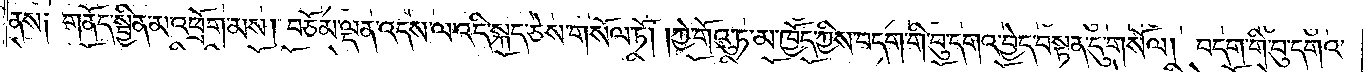ནས༑ གནོད་སྦྱིན་མ་འཕྲོག་མས། བཅོམ་ལྡན་འདས་ལ་འདི་སྐད་ཅེས་གསོལ་ཏོ། །ཀྱེ་གོའུ་ཏ་མ་ཁྱོད་ཀྱིས་བདག་གི་བུ་དགའ་བྱེད་བསྟན་དུ་གསོལ། བདག་གི་བུ་དགའ་
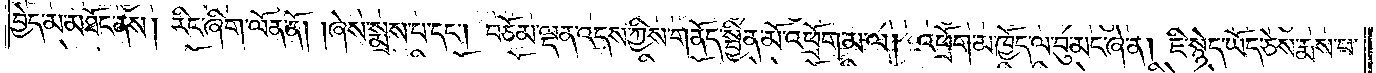བྱེད་མ་མཐོང་ནས། རིང་ཞིག་ལོན་ནོ། །ཞེས་སྨྲས་པ་དང༌། བཅོམ་ལྡན་འདས་ཀྱིས་གནོད་སྦྱིན་མོ་འཕྲོག་མ་ལ། འཕྲོག་མ་ཁྱོད་ལ་བུ་མང་ཞེ་ན། ཇི་སྙེད་ཡོད་ཅེས་རྨས་པ་
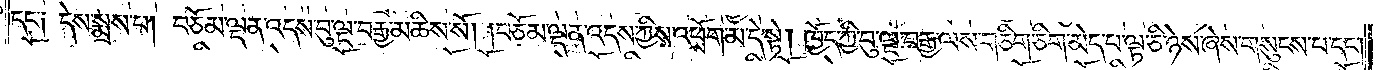དང་༑ དེས་སྨྲས་པ། བཅོམ་ལྡན་འདས་བུ་ལྔ་བརྒྱ་མཆིས་སོ། །བཅོམ་ལྡན་འདས་ཀྱིས་འཕྲོག་མ་དེ་སྟེ། ཁྱོད་ཀྱི་བུ་ལྔ་བརྒྱ་ལས་གཅིག་ཅིག་མེད་པ་ལྟ་ཅི་ཉེས་ཞེས་གསུངས་པ་དང༌།
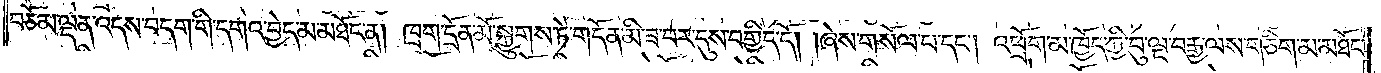བཅོམ་ལྡན་འདས་བདག་གི་དགའ་བྱེད་མ་མཐོང་ན། ཁྲག་དྲོན་མོ་སྐྱུགས་ཏེ་གདོན་མི་ཟ་བར་དུས་བགྱིད་དོ། །ཞེས་གསོལ་པ་དང༌། འཕྲོག་མ་ཁྱོད་ཀྱི་བུ་ལྔ་བརྒྱ་ལས་གཅིག་མ་མཐོང་
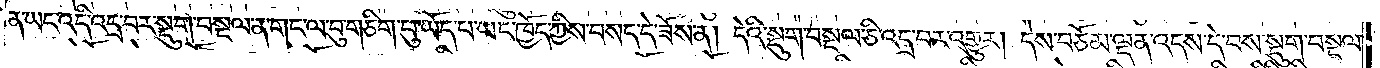ན་ཡང་འདི་འདྲ་བར་སྡུག་བསྔལ་ན་གང་ལ་བུ་གཅིག་པུ་ཡོད་པ་ཡང་ཁྱོད་ཀྱིས་བསད་དེ་ཟོས་ན། དེའི་སྡུག་བསྔལ་ཅི་འདྲ་བར་འགྱུར། དེས་བཅོམ་ལྡན་འདས་དེ་བས་སྡུག་བསྔལ་
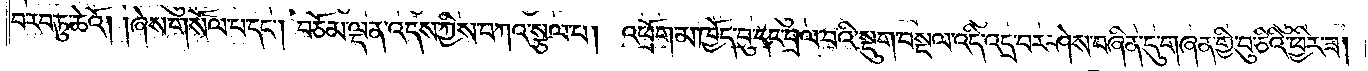བ་རབ་ཏུ་ཆེའོ། །ཞེས་གསོལ་པ་དང༌། བཅོམ་ལྡན་འདས་ཀྱིས་བཀའ་སྩལ་པ། འཕྲོག་མ་ཁྱོད་བུ་དང་བྲལ་བའི་སྡུག་བསྔལ་འདི་འདྲ་བར་ཤེས་བཞིན་དུ་གཞན་གྱི་བུ་ཅིའི་ཕྱིར་ཟ།
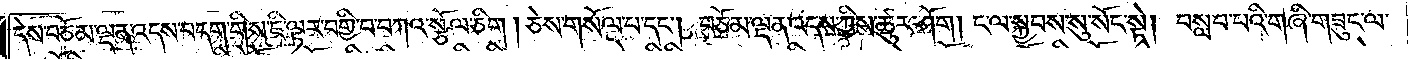དེས་བཅོམ་ལྡན་འདས་བདག་གིས་ཇི་ལྟར་བགྱི་བ་བཀའ་སྩོལ་ཅིག །ཅེས་གསོལ་པ་དང༌། བཅོམ་ལྡན་འདས་ཀྱིས་ཚུར་ཤོག །ང་ལ་སྐྱབས་སུ་སོང་སྟེ། བསླབ་པའི་གཞི་གཟུང་ལ་
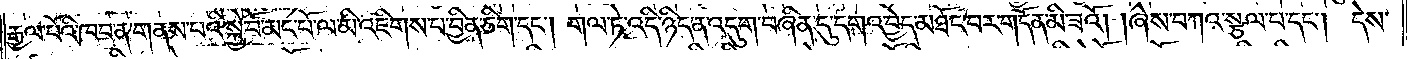རྒྱལ་པོའི་ཁབ་ན་གནས་པའི་སྐྱེ་བོ་མང་པོ་ལ་མི་འཇིགས་པ་བྱིན་ཅིག་དང༌། གལ་ཏེ་འདི་ཉིད་ན་འདུག་བཞིན་དུ་དགའ་བྱེད་མཐོང་བར་གདོན་མི་ཟའོ། །ཞེས་བཀའ་སྩལ་པ་དང༌། དེས་
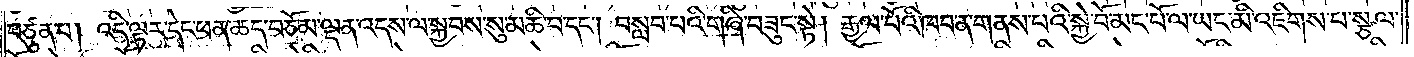བཙུན་པ། འདི་ལྟར་དེང་ཕན་ཆད་བཅོམ་ལྡན་འདས་ལ་སྐྱབས་སུ་མཆི་བ་དང༌། བསླབ་པའི་གཞི་བཟུང་སྟེ། རྒྱལ་པོའི་ཁབ་ན་གནས་པའི་སྐྱེ་བོ་མང་པོ་ལ་ཡང་མི་འཇིགས་པ་སྩལ་
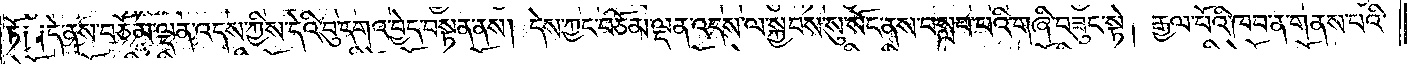ཏོ༑ ༑དེ་ནས་བཅོམ་ལྡན་འདས་ཀྱིས་དེའི་བུ་དགའ་བྱེད་བསྟན་ནས། དེས་ཀྱང་བཅོམ་ལྡན་འདས་ལ་སྐྱབས་སུ་སོང་ནས་བསླབ་པའི་གཞི་བཟུང་སྟེ། རྒྱལ་པོའི་ཁབ་ན་གནས་པའི་
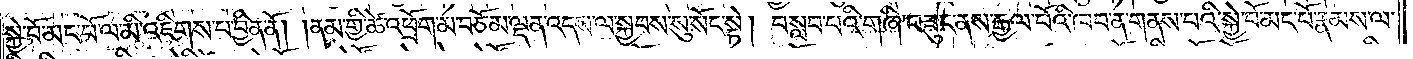སྐྱེ་བོ་མང་པོ་ལ་མི་འཇིགས་པ་བྱིན་ནོ། །ནམ་གྱི་ཚེ་འཕྲོག་མ་བཅོམ་ལྡན་འདས་ལ་སྐྱབས་སུ་སོང་སྟེ། བསླབ་པའི་གཞི་བཟུང་ནས་རྒྱལ་པོའི་ཁབ་ན་གནས་པའི་སྐྱེ་བོ་མང་པོ་རྣམས་ལ་
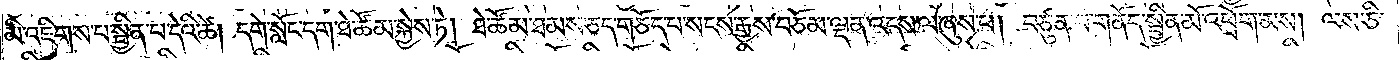མི་འཇིགས་པ་སྦྱིན་པ་དེའི་ཚེ། དགེ་སློང་དག་ཐེ་ཚོམ་སྐྱེས་ཏེ། ཐེ་ཚོམ་ཐམས་ཅད་གཅོད་པ་སངས་རྒྱས་བཅོམ་ལྡན་འདས་ལ་ཞུས་པ། བཙུན་པ་གནོད་སྦྱིན་མོ་འཕྲོག་མས། ལས་ཅི་
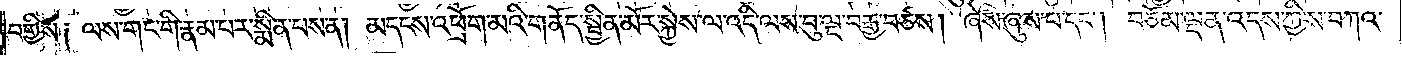བགྱིས༑ ལས་གང་གི་རྣམ་པར་སྨིན་པས་ན། མདངས་འཕྲོག་མའི་གནོད་སྦྱིན་མོར་སྐྱེས་ལ་འདི་ལས་བུ་ལྔ་བརྒྱ་བཙས། ཞེས་ཞུས་པ་དང༌། བཅོམ་ལྡན་འདས་ཀྱིས་བཀའ་
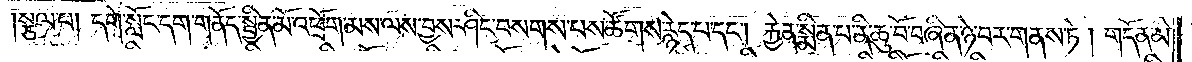སྩལ་པ། དགེ་སློང་དག་གནོད་སྦྱིན་མོ་འཕྲོག་མས་ལས་བྱས་ཤིང་བསགས་པས་ཚོགས་རྙེད་པ་དང༌། རྐྱེན་སྨིན་པ་ནི་ཆུ་བོ་བཞིན་ཉེ་བར་གནས་ཏེ། གདོན་མི་
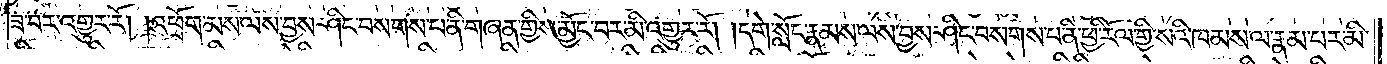ཟ་བར་འགྱུར་རོ། །འཕྲོག་མས་ལས་བྱས་ཤིང་བསགས་པ་ནི་གཞན་གྱིས་མྱོང་བར་མི་འགྱུར་རོ། །དགེ་སློང་རྣམས་ལས་བྱས་ཤིང་བསགས་པ་ནི་ཕྱི་རོལ་གྱི་སའི་ཁམས་ལ་རྣམ་པར་མི་
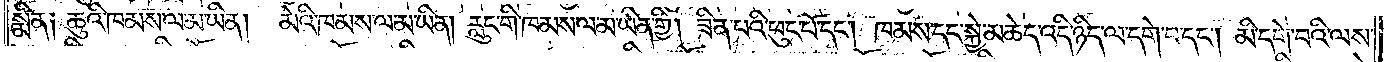སྨིན༑ ཆུའི་ཁམས་ལ་མ་ཡིན། མེའི་ཁམས་ལ་མ་ཡིན། རླུང་གི་ཁམས་ལ་མ་ཡིན་གྱི། ཟིན་པའི་ཕུང་པོ་དང༌། ཁམས་དང་སྐྱེ་མཆེད་འདི་ཉིད་ལ་དགེ་བ་དང༌། མི་དགེ་བའི་ལས་
